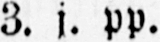3. j. PP.
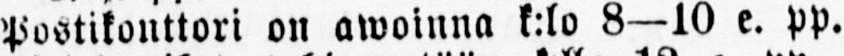Postikonttori on awoinna k:lo 8—10 e. PP.
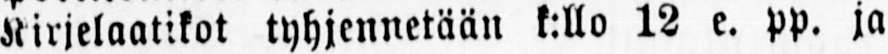Kirjelaatikot tyhjennetään k:llo 12 e. pp. ja
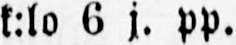k:lo 6 j. pp.
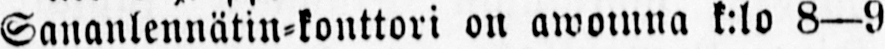Sananlennätin-konttori on awoinna k:lo 8 —9
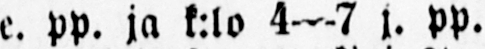e. PP. ja k:lo 4—7 j. PP.
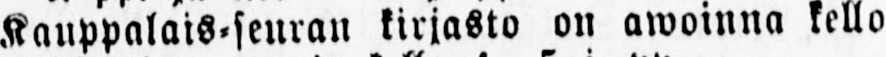Kauppalais-seuran kirjasto on awoinna kello
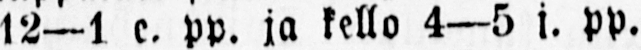12—1 e. pp. ja kello 4—5 j. PP.
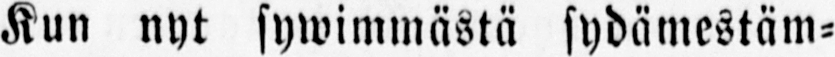Kun nyt sywimmästä sydämestäm-
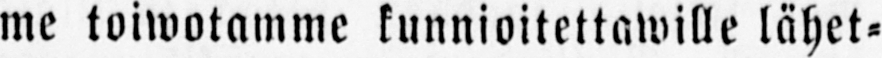me toiwotamme kunnioitettawille lähet-
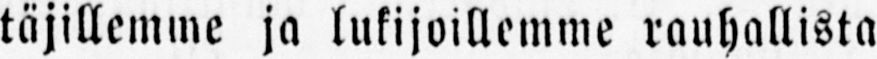täjillemme ja lukijoillemme rauhallista
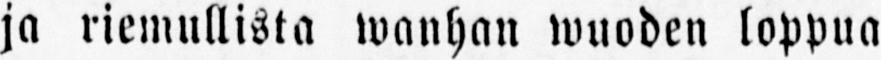ja riemullista wanhan wuoden loppua
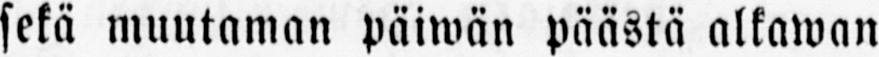sekä muutaman päiwän päästä alkawan
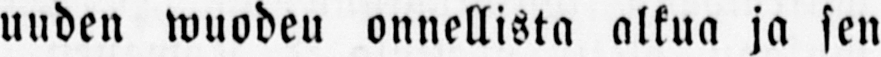uuden wuoden onnellista alkua ja sen
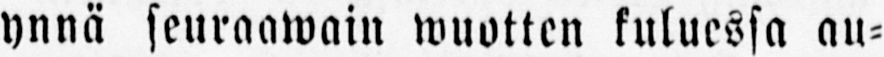ynnä seuraawain wuotten kuluessa au-
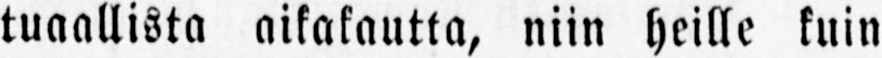tuaallista aikakautta, niin heille kuin
